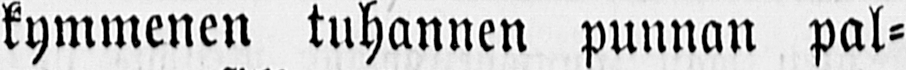kymmenen tuhannen punnan pal-
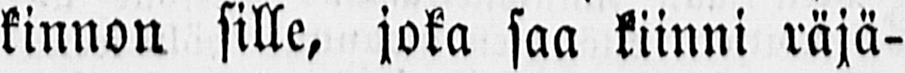kinnon sille, joka saa kiinni räjä-
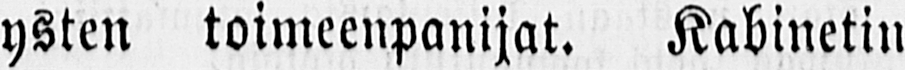ysten toimeenpanijat. Kabinetin
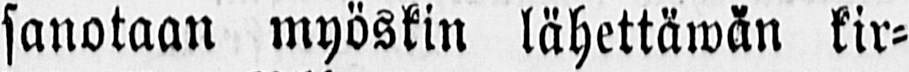sanotaan myöskin lähettäwän kir-
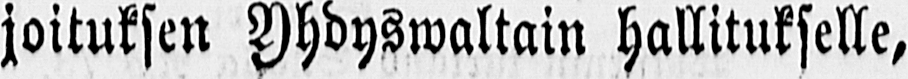joituksen Yhdyswaltain hallitukselle,
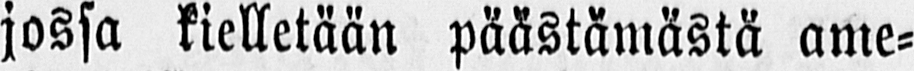jossa kielletään päästämästä ame-
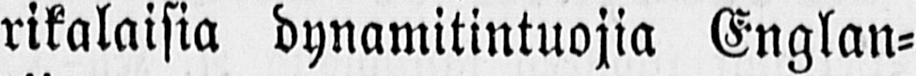rikalaisia dynamitintuojia Englan-
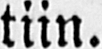tiin.
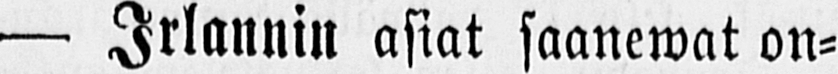— Irlannin asiat saanewat on-
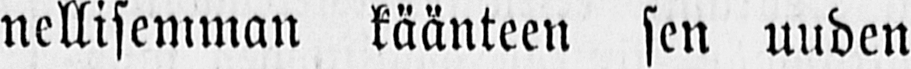nellisemman käänteen sen uuden
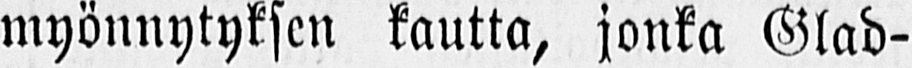myönnytyksen kautta, jonka Glad-
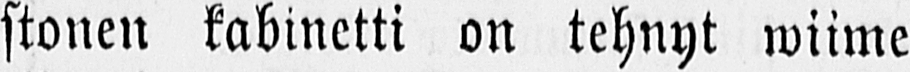stonen kabinetti on tehnyt wiime
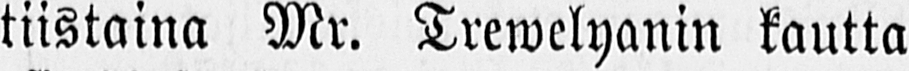tiistaina Mr. Trewelyanin kautta
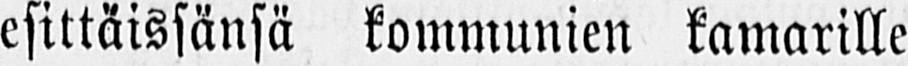esittäissänsä kommunien kamarille
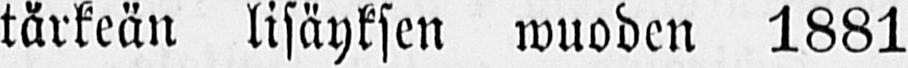tärkeän lisäyksen wuoden 1881
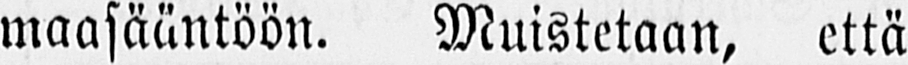maasääntöön. Muistetaan, että
